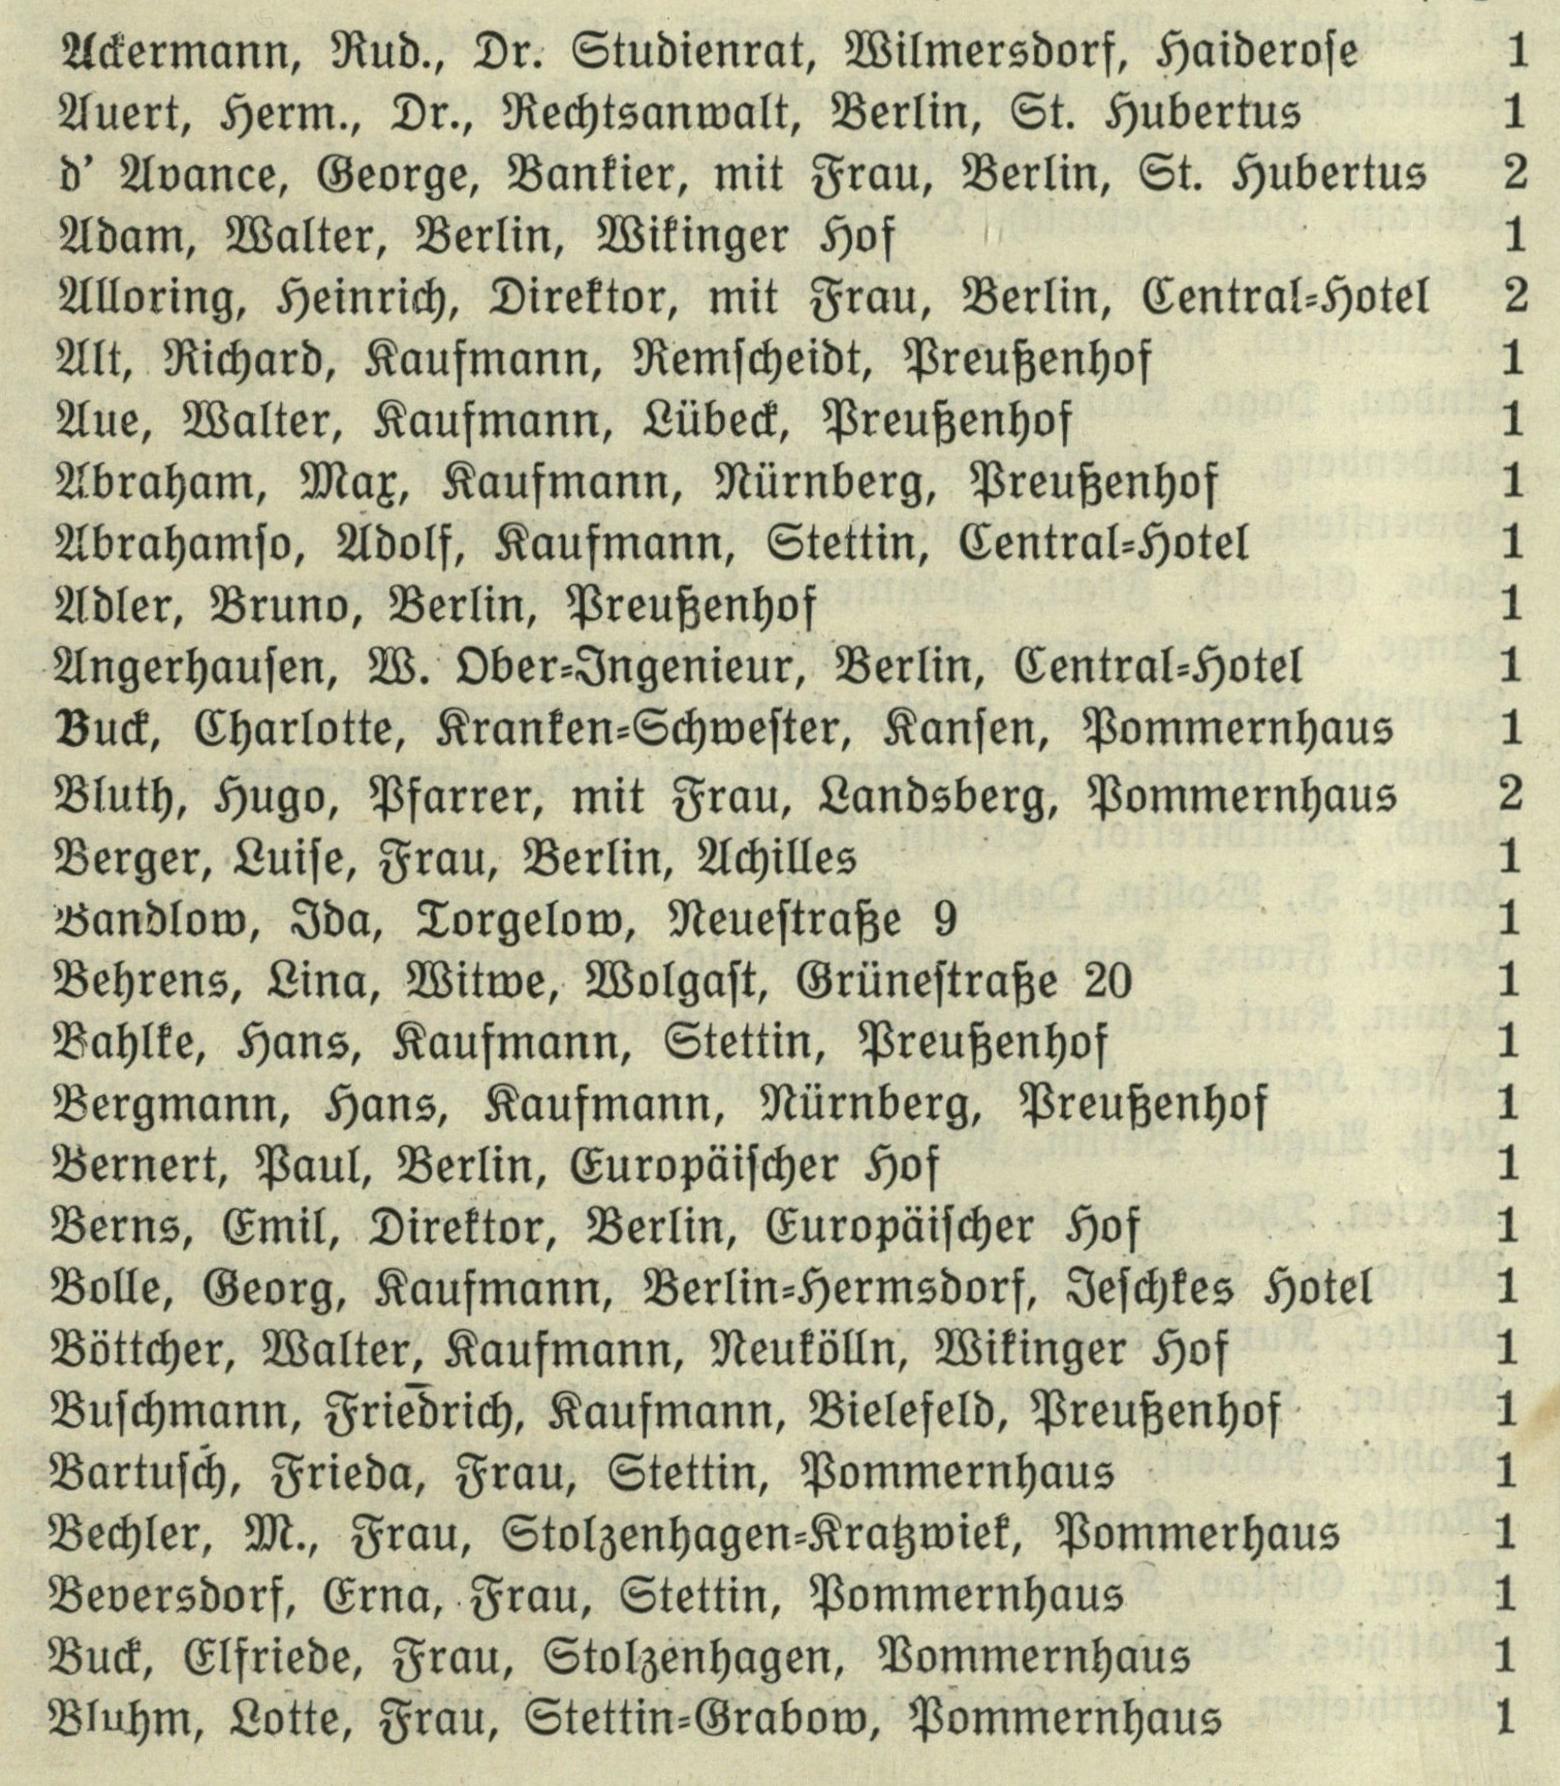Ackermann, Rud., Dr. Studienrat, Wilmersdorf, Haiderose | 1
Auert, Herm., Dr., Rechtsanwalt, Berlin, St. Hubertus | 1
d' Avance, George, Bankier, mit Frau, Berlin, St. Hubertus | 2
Adam, Walter, Berlin, Wikinger Hof | 1
Alloring, Heinrich, Direktor, mit Frau, Berlin, Central=Hotel | 2
Alt, Richard, Kaufmann, Remscheidt, Preußenhof | 1
Aue, Walter, Kaufmann, Lübeck, Preußenhof | 1
Abraham, Max, Kaufmann, Nürnberg, Preußenhof | 1
Abrahamso, Adolf, Kaufmann, Stettin, Central=Hotel | 1
Adler, Bruno, Berlin, Preußenhof | 1
Angerhausen, W. Ober=Ingenieur, Berlin, Central=Hotel | 1
Buck, Charlotte, Kranken=Schwester, Kansen, Pommernhaus | 1
Bluth, Hugo, Pfarrer, mit Frau, Landsberg, Pommernhaus | 2
Berger, Luise, Frau, Berlin, Achilles | 1
Bandlow, Ida, Torgelow, Neuestraße 9 | 1
Behrens, Lina, Witwe, Wolgast, Grünestraße 20 | 1
Bahlke, Hans, Kaufmann, Stettin, Preußenhof | 1
Bergmann, Hans, Kaufmann, Nürnberg, Preußenhof | 1
Bernert, Paul, Berlin, Europäischer Hof | 1
Berns, Emil, Direktor, Berlin, Europäischer Hof | 1
Bolle, Georg, Kaufmann, Berlin=Hermsdorf, Jeschkes Hotel | 1
Böttcher, Walter, Kaufmann, Neukölln, Wikinger Hof | 1
Buschmann, Friedrich, Kaufmann, Bielefeld, Preußenhof | 1
Bartusch, Frieda, Frau, Stettin, Pommernhaus | 1
Bechler, M., Frau, Slotzenhagen=Kratzwiek, Pommernhaus | 1
Beversdorf, Erna, Frau, Stettin, Pommernhaus | 1
Buck, Elfriede, Frau, Stolzenhagen, Pommernhaus | 1
Bluhm, Lotte, Frau, Stettin=Grabow, Pommernhaus | 1
